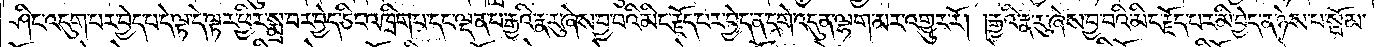ཤིང་འདུག་པར་བྱེད་པ་དེ་ལྟ་དེ་ལྟར་ཕྱིར་སྨྲ་བར་བྱེད་ཅིང་འཁྲིག་པ་དང་ལྡན་པ་རྒྱའི་རྣ་རུ་ཞེས་བྱ་བའི་མིང་རྗོད་པར་བྱེད་ན་དགེ་འདུན་ལྷག་མར་འགྱུར་རོ། །རྒྱའི་རྣ་རུ་ཞེས་བྱ་བའི་མིང་རྗོད་པར་མི་བྱེད་ན་ཉེས་པ་སྦོམ་
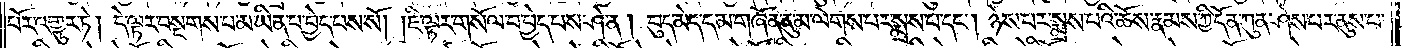པོར་འགྱུར་ཏེ། དེ་ལྟར་བསྔགས་པ་མ་ཡིན་པ་བྱེད་པས་སོ། །ཇི་ལྟར་གསོལ་བ་བྱེད་པས་ཤེ་ན། བུད་མེད་དམ་གཞོན་ནུ་མ་ལེགས་པར་སྨྲས་པ་དང༌། ཉེས་པར་སྨྲས་པའི་ཆོས་རྣམས་ཀྱི་དོན་ཀུན་ཤེས་པར་ནུས་པ་
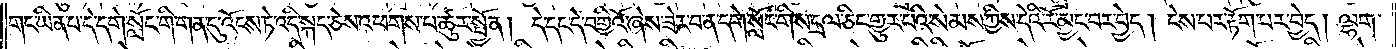གང་ཡིན་པ་དེ་དགེ་སློང་གི་གན་དུ་འོངས་ཏེ་འདི་སྐད་ཅེས་འཕགས་པ་ཚུར་སྤྱོན། དེ་དང་དེ་བགྱིའོ་ཞེས་ཟེར་བ་ན་དགེ་སློང་གིས་དྲལ་ཅིང་གྱུར་པའི་སེམས་ཀྱིས་དེའི་རོ་མྱང་བར་བྱེད། ངེས་པར་རྟོག་པར་བྱེད། ལྷག་
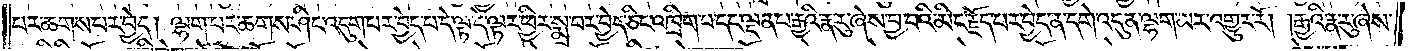པར་ཆགས་པར་བྱེད། ལྷག་པར་ཆགས་ཤིང་འདུག་པར་བྱེད་པ་དེ་ལྟ་དེ་ལྟར་ཕྱིར་སྨྲ་བར་བྱེད་ཅིང་འཁྲིག་པ་དང་ལྡན་པ་རྒྱའི་རྣ་རུ་ཞེས་བྱ་བའི་མིང་རྗོད་པར་བྱེད་ན་དགེ་འདུན་ལྷག་མར་འགྱུར་རོ། །རྒྱའི་རྣ་རུ་ཞེས་
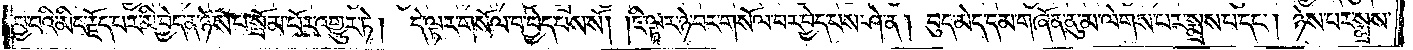བྱ་བའི་མིང་རྗོད་པར་མི་བྱེད་ན་ཉེས་པ་སྦོམ་པོར་འགྱུར་ཏེ།<gap>དེ་ལྟར་གསོལ་བ་བྱེད་པས་སོ། །ཇི་ལྟར་ཉེ་བར་གསོལ་བར་བྱེད་པས་ཤེ་ན། བུད་མེད་དམ་གཞོན་ནུ་མ་ལེགས་པར་སྨྲས་པ་དང༌། ཉེས་པར་སྨྲས་
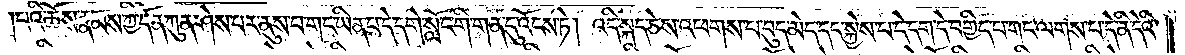།པའི་ཆོས་རྣམས་ཀྱི་དོན་ཀུན་ཤེས་པར་ནུས་པ་གང་ཡིན་པ་དེ་དགེ་སློང་གི་གན་དུ་འོངས་ཏེ། འདི་སྐད་ཅེས་འཕགས་པ་བུད་མེད་དང་སྐྱེས་པ་དེ་དག་དེ་བགྱིད་པ་གང་ལགས་པ་དེ་ནི་དེའི་
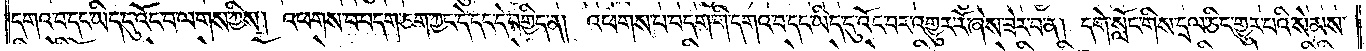དགའ་བ་དང་ཡིད་དུ་འོང་བ་ལགས་ཀྱིས། འཕགས་པ་བདག་ཅག་ཀྱང་དེ་དང་དེ་བགྱིད་ན། འཕགས་པ་བདག་གི་དགའ་བ་དང་ཡིད་དུ་འོང་བར་འགྱུར་རོ་ཞེས་ཟེར་བ་ན། དགེ་སློང་གིས་དྲལ་ཅིང་གྱུར་པའི་སེམས་
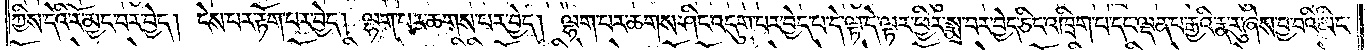ཀྱིས་དེའི་རོ་མྱང་བར་བྱེད། ངེས་པར་རྟོག་པར་བྱེད། ལྷག་པར་ཆགས་པར་བྱེད། ལྷག་པར་ཆགས་ཤིང་འདུག་པར་བྱེད་པ་དེ་ལྟ་དེ་ལྟར་ཕྱིར་སྨྲ་བར་བྱེད་ཅིང་འཁྲིག་པ་དང་ལྡན་པ་རྒྱའི་རྣ་རུ་ཞེས་བྱ་བའི་མིང་
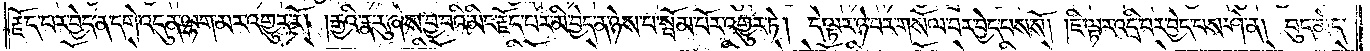རྗོད་པར་བྱེད་ན་དགེ་འདུན་ལྷག་མར་འགྱུར་རོ། །རྒྱའི་རྣ་རུ་ཞེས་བྱ་བའི་མིང་རྗོད་པར་མི་བྱེད་ན་ཉེས་པ་སྦོམ་པོར་འགྱུར་ཏེ། དེ་ལྟར་ཉེ་བར་གསོལ་བར་བྱེད་པས་སོ། །ཇི་ལྟར་འདྲི་བར་བྱེད་པས་ཤེ་ན། བུད་མེད་
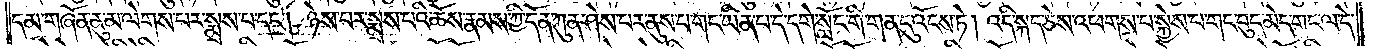དམ་གཞོན་ནུ་མ་ལེགས་པར་སྨྲས་པ་དང༌། ཉེས་པར་སྨྲས་པའི་ཆོས་རྣམས་ཀྱི་དོན་ཀུན་ཤེས་པར་ནུས་པ་གང་ཡིན་པ་དེ་དགེ་སློང་གི་གན་དུ་འོངས་ཏེ། འདི་སྐད་ཅེས་འཕགས་པ་སྐྱེས་པ་གང་བུད་མེད་གང་ལ་དེ་
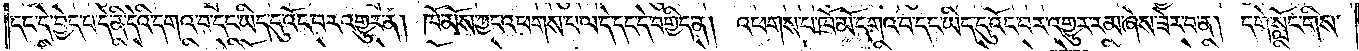དང་དེ་བྱེད་པ་དེ་ནི་དེའི་དགའ་བ་དང་ཡིད་དུ་འོང་བར་འགྱུར་ན། ཁོ་མོས་ཀྱང་འཕགས་པ་ལ་དེ་དང་དེ་བགྱིད་ན། འཕགས་པ་ཁོ་མོ་དགའ་བ་དང་ཡིད་དུ་འོང་བར་འགྱུར་རམ་ཞེས་ཟེར་བ་ན། དགེ་སློང་གིས་
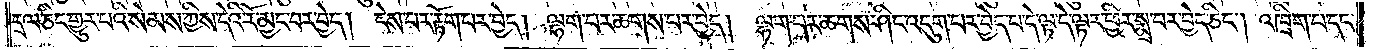དྲལ་ཅིང་གྱུར་པའི་སེམས་ཀྱིས་དེའི་རོ་མྱང་བར་བྱེད། ངེས་པར་རྟོག་པར་བྱེད། ལྷག་པར་ཆགས་པར་བྱེད། ལྷག་པར་ཆགས་ཤིང་འདུག་པར་བྱེད་པ་དེ་ལྟ་དེ་ལྟར་ཕྱིར་སྨྲ་བར་བྱེད་ཅིང༌། འཁྲིག་པ་དང་
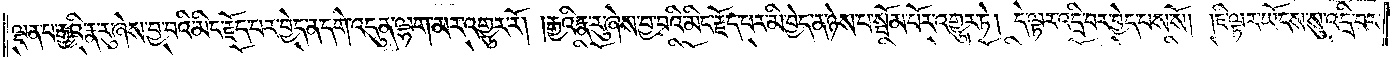ལྡན་པ་རྒྱའི་རྣ་རུ་ཞེས་བྱ་བའི་མིང་རྗོད་པར་བྱེད་ན་དགེ་འདུན་ལྷག་མར་འགྱུར་རོ། །རྒྱའི་རྣ་རུ་ཞེས་བྱ་བའི་མིང་རྗོད་པར་མི་བྱེད་ན་ཉེས་པ་སྦོམ་པོར་འགྱུར་ཏེ། དེ་ལྟར་འདྲི་བར་བྱེད་པས་སོ། །ཇི་ལྟར་ཡོངས་སུ་འདྲི་བར་
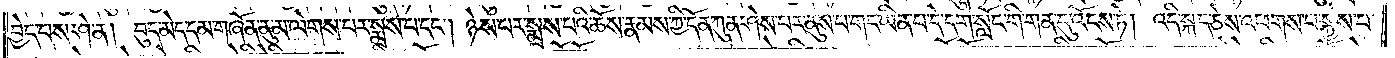བྱེད་པས་ཤེ་ན། བུད་མེད་དམ་གཞོན་ནུ་མ་ལེགས་པར་སྨྲས་པ་དང༌། ཉེས་པར་སྨྲས་པའི་ཆོས་རྣམས་ཀྱི་དོན་ཀུན་ཤེས་པར་ནུས་པ་གང་ཡིན་པ་དེ་དགེ་སློང་གི་གན་དུ་འོངས་ཏེ། འདི་སྐད་ཅེས་འཕགས་པ་སྐྱེས་པ་
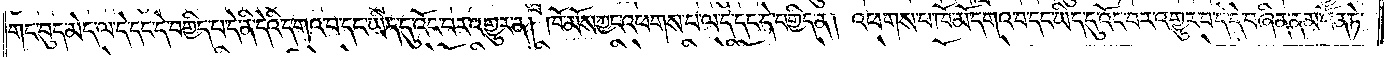གང་བུད་མེད་ལ་དེ་དང་དེ་བགྱིད་པ་དེ་ནི་དེའི་དགའ་བ་དང་ཡིད་དུ་འོང་བར་འགྱུར་ན། ཁོ་མོས་ཀྱང་འཕགས་པ་ལ་དེ་དང་དེ་བགྱིད་ན། འཕགས་པ་ཁོ་མོ་དགའ་བ་དང་ཡིད་དུ་འོང་བར་འགྱུར་བ་དེ་དེ་བཞིན་ནམ་འོན་ཏེ་
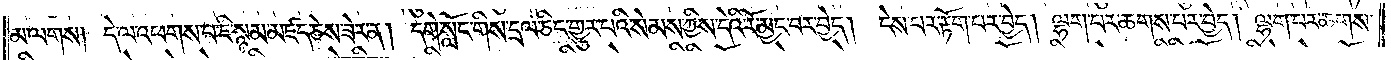མ་ལགས། དེ་ལ་འཕགས་པ་ཇི་སྙམ་མཛད་ཅེས་ཟེར་ན། དགེ་སློང་གིས་དྲལ་ཅིང་གྱུར་པའི་སེམས་ཀྱིས་དེའི་རོ་མྱང་བར་བྱེད། ངེས་པར་རྟོག་པར་བྱེད། ལྷག་པར་ཆགས་པར་བྱེད། ལྷག་པར་ཆགས་
